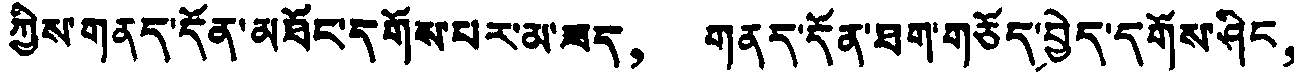ཀྱིས་གནད་དོན་མཐོང་དགོས་པར་མ་ཟད， གནད་དོན་ཐག་གཅོད་བྱེད་དགོས་ཤིང，
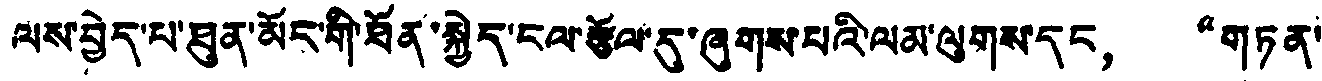ལས་བྱེད་པ་ཐུན་མོང་གི་ཐོན་སྐྱེད་ངལ་རྩོལ་དུ་ཞུགས་པའི་ལམ་ལུགས་དང， “གཏན་
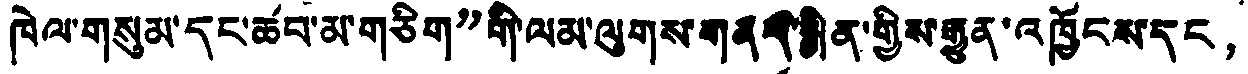ཁེལ་གསུམ་དང་ཚབ་མ་གཅིག”གི་ལམ་ལུགས་གནད་སྨིན་གྱིས་རྒྱུན་འཁྱོངས་དང，
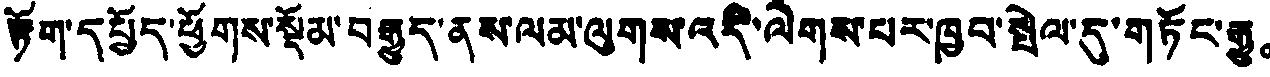རྟོག་དཔྱོད་ཕྱོགས་སྡོམ་བརྒྱུད་ནས་ལམ་ལུགས་འདི་ལེགས་པར་ཁྱབ་སྤེལ་དུ་གཏོང་རྒྱུ。
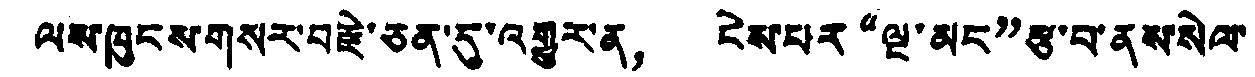ལས་ཁུངས་གསར་བརྗེ་ཅན་དུ་འགྱུར་ན， ངེས་པར“ལྔ་མང”རྩ་བ་ནས་སེལ་
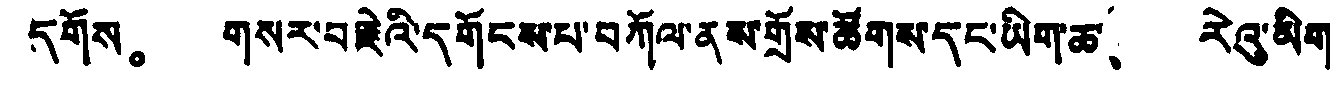དགོས。 གསར་བརྗེའི་དགོངས་པ་བཀོལ་ནས་གྲོས་ཚོགས་དང་ཡིག་ཆ、 རེའུ་མིག་
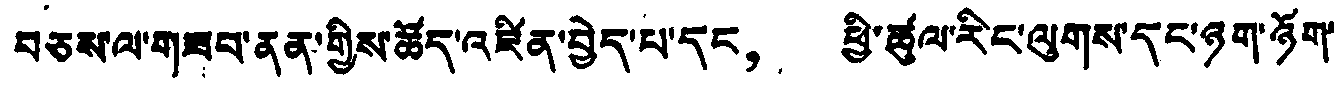བཅས་ལ་གཟབ་ནན་གྱིས་ཚོད་འཛིན་བྱེད་པ་དང， ཕྱི་ཚུལ་རིང་ལུགས་དང་ཉག་ཉོག་
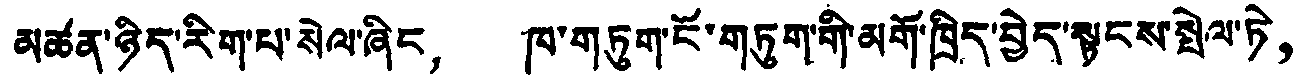མཚན་ཉིད་རིག་པ་སེལ་ཞིང， ཁ་གཏུག་ངོ་གཏུག་གི་མགོ་ཁྲིད་བྱེད་སྟངས་སྤེལ་ཏེ，
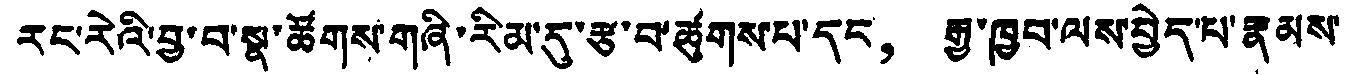རང་རེའི་བྱ་བ་སྣ་ཚོགས་གཞི་རིམ་དུ་རྩ་བ་ཚུགས་པ་དང， རྒྱ་ཁྱབ་ལས་བྱེད་པ་རྣམས་
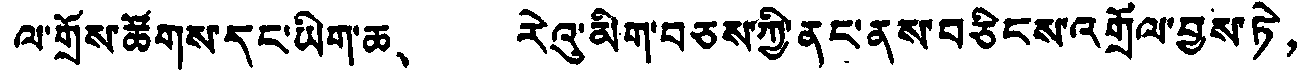ལ་གྲོས་ཚོགས་དང་ཡིག་ཆ、 རེའུ་མིག་བཅས་ཀྱི་ནང་ནས་བཅིངས་འགྲོལ་བྱས་ཏེ，
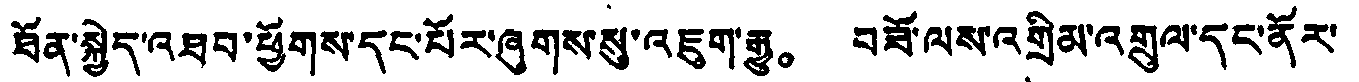ཐོན་སྐྱེད་འཐབ་ཕྱོགས་དང་པོར་ཞུགས་སུ་འཇུག་རྒྱུ。 བཟོ་ལས་འགྲིམ་འགྲུལ་དང་ནོར་
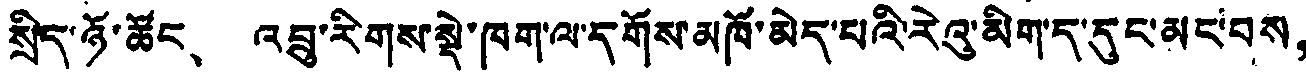སྲིད་ཉོ་ཚོང、 འབྲུ་རིགས་སྡེ་ཁག་ལ་དགོས་མཁོ་མེད་པའི་རེའུ་མིག་ད་དུང་མང་བས，
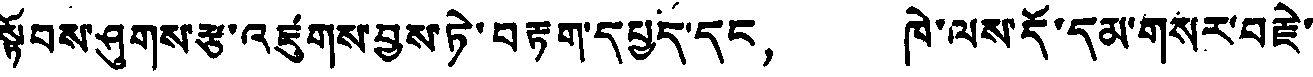སྟོབས་ཤུགས་རྩ་འཛུགས་བྱས་ཏེ་བརྟག་དཔྱད་དང， ཁེ་ལས་དོ་དམ་གསར་བརྗེ་
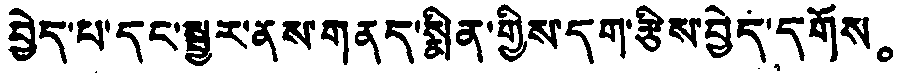བྱེད་པ་དང་སྦྱར་ནས་གནད་སྨིན་གྱིས་དག་རྩིས་བྱེད་དགོས。
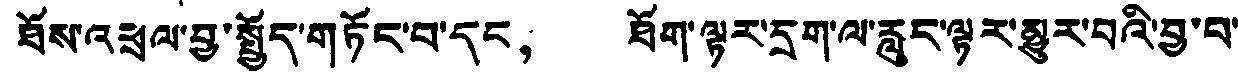ཐོས་འཕྲལ་བྱ་སྤྱོད་གཏོང་བ་དང， ཐོག་ལྟར་དྲུག་ལ་རླུང་ལྟར་མྱུར་བའི་བྱ་བ་
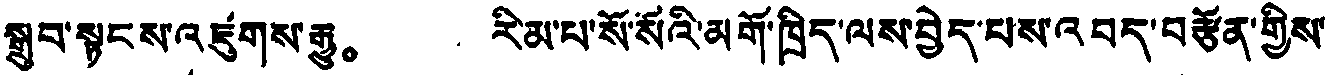སྒྲུབ་སྟངས་འཛུགས་རྒྱུ。 རིམ་པ་སོ་སོའི་མགོ་ཁྲིད་ལས་བྱེད་པས་འབད་བརྩོན་གྱིས་
